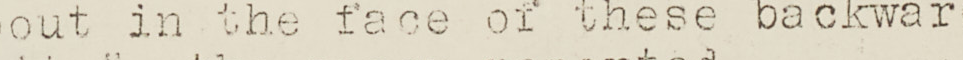a new era in Chinese history and
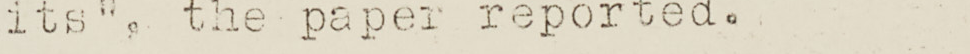was here to stay... Thousands of
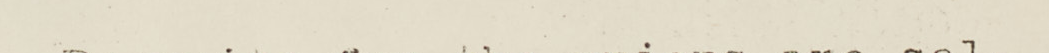overseas Chinese boys and girls flo
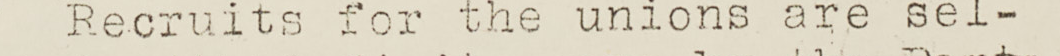cked to the mainland to receive ad-
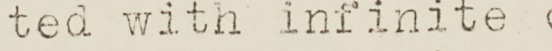vanced education. !
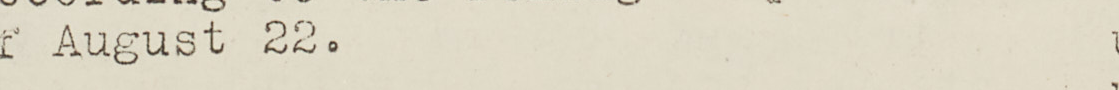PREPARATIONS COMPLETE FOR DOUBLE TENTH
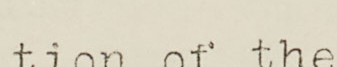CELEBRATION
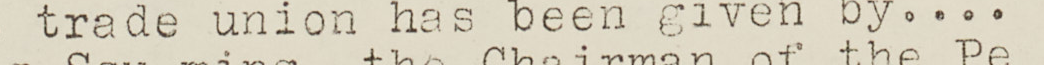Preparations are virtually complete
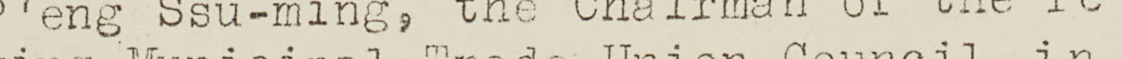for Taiwan's biggest celebration of the
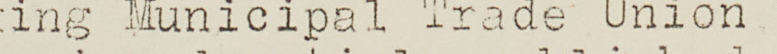Double Tenth national day.
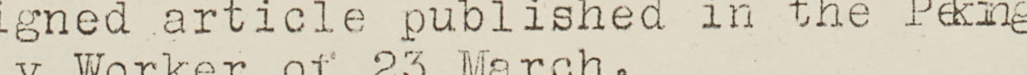President Chiang Kai-shek will re-
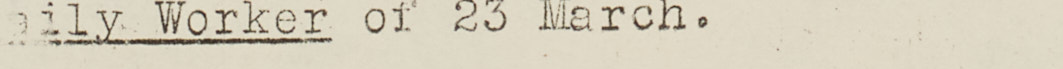view a gigantic military parade from
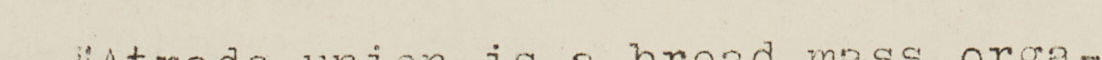stands erected in front of the presi-
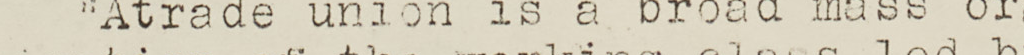dential building. He will receive
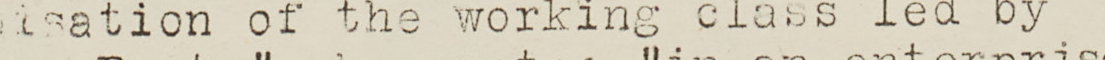well-wishers from throughout the free
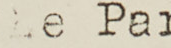world.
